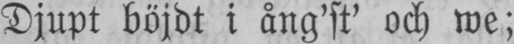Djupt böjdt i ång'st' och we;
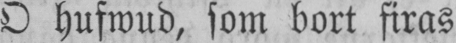O hufwud, som bort firas
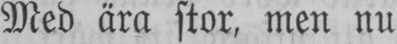Med ära stor, men nu
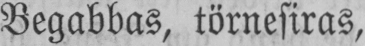Begabbas, törnesiras,
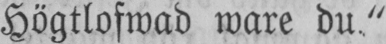Högtlofwad ware du."
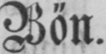Bön.
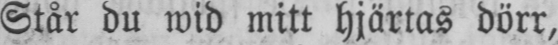Står du wid mitt hjärtas dörr,
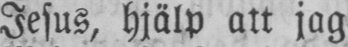Jesus, hjälp att jag
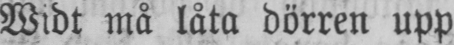Widt må låta dörren upp
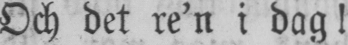Och det re'n i dag!
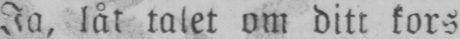Ja, låt talet om ditt kors
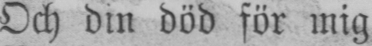Och din död för mig
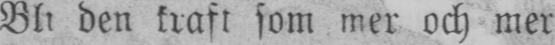Bli den kraft som mer och mer
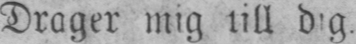Drager mig till dig.
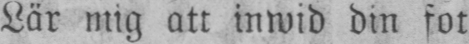Lär mig att inwid din fot
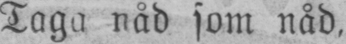Taga, nåd som nåd,
